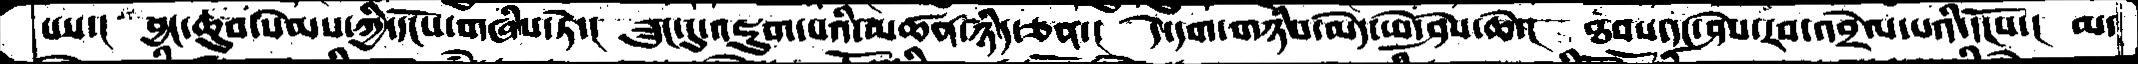པས་།  བྱང་ཆུབ་སེམས་ཀྱི་དངོས་གཞིས་ཏེ་།   ཟུང་དུ་འཇུག་པའི་མཚན་ཉིད་ཅན་།  དེ་དག་གཉིས་མེད་ཡེ་ཤེས་ཆེ་།  ཐབས་དང་ཤེས་རབ་འབྲེལ་པའི་དངོས་།  མ་
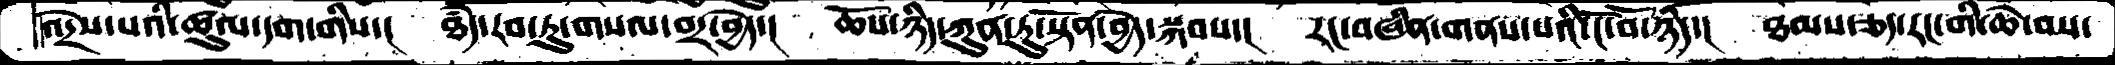འདྲེས་པའི་ཚུལ་དག་གིས་།   ཐཾད་རབ་ཏུ་གསལ་བར་བྱེད་།  ཆོས་ཉིད་ཀུན་ཏུ་སྟོན་བྱེད་སྐབས་།  རང་བཞིན་གནས་པའི་ངོ་བོ་ཉིད་།  ཐམས་ཅད་རང་གི་ཆེ་བས་
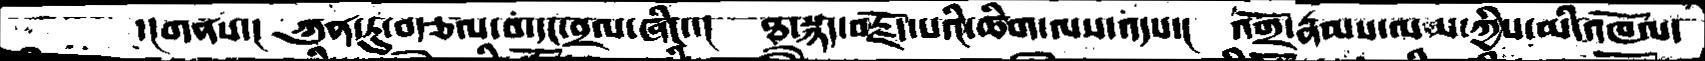་།གནས་།  ཀུན་ཏུ་བརྩལ་བ་དང་བྲལ་ཞིང་་།  ཐ་སྙད་བརྗོད་པའི་ཚིག་ལས་འདས་།  འགྲོ་རྣམས་ལས་ཀྱིས་མི་འཁོལ་
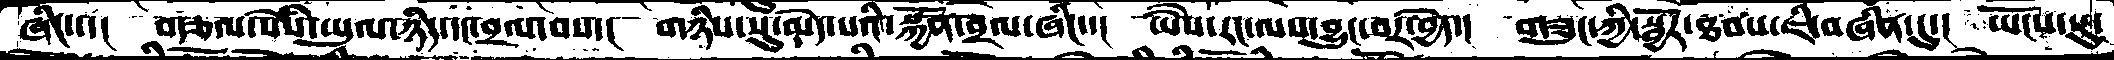ཞིང་་།  བརྩལ་སེཾས་ཡུལ་ཉིད་དང་བྲལ་བས་།  གཉིས་སུ་མེད་པའི་སྐྱོན་བྲལ་ཞིང་་།  ཡཻས་རང་ལས་བྱུང་བར་བྱེད་།  གཟུང་ཀྱི་སྦྱོར་ཐབས་ཇི་བཞིན་དུ་།  ཡོངས་སུ་
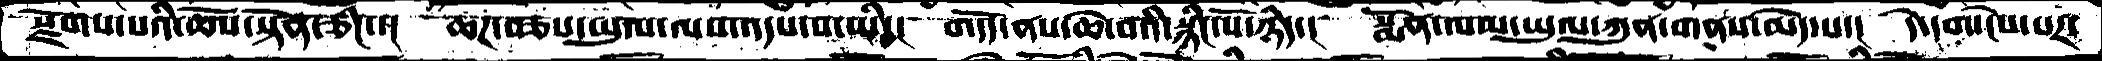སྫོགས་པའི་ཆོས་སྟོན་ཅིང་་།  ཆཌ་བཅས་ཡུལ་ལས་འདས་པ་ཡི་།  གདོད་ནས་ཆེ་བའི་སྙིང་པོ་ཉིད་།  སྨོན་ལམ་ཡུལ་ཀུན་གནས་མེད་པ་།  དེ་དག་ངེས་པར་
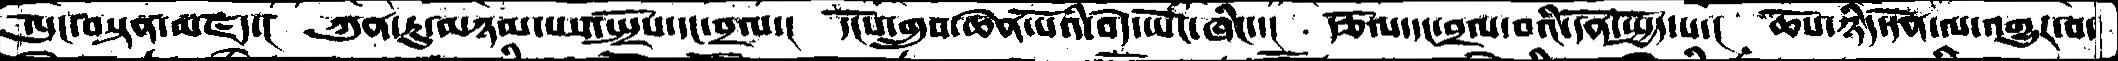ལུང་བསྟན་མཛད་།  ཀུན་ཏུ་མཉམ་པས་སྤྲོས་དང་བྲལ་།  དངོས་གྲུབ་ཆེན་པོའི་བདེ་ཡོང་ཞིང་་།  རྩོལ་དང་བྲལ་བའི་དོན་སྤྱོད་པ་།  ཆོས་ཉིད་དོན་ལ་འགྱུར་བ་
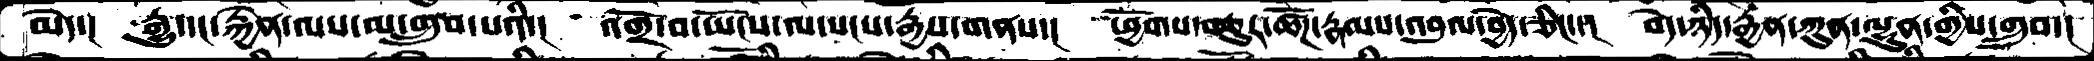མེད་།  རྒྱུ་དང་རྐྱེན་ལས་མ་གྲུབ་པའི་།  འགྲོ་བ་ཡོངས་ལ་སངས་རྒྱས་གནས་།  ཕྱོགས་བཅུར་ཚོཌ་རྣམས་འབུལ་བྱེད་ཅིང་་།  བདེ་ཉིད་རྒྱན་ཀུན་ལྷུན་གྱིས་གྲུབ་།
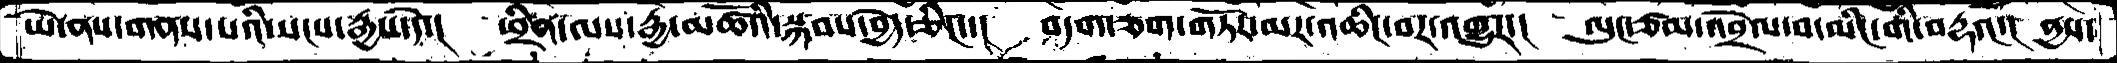ཡེ་ནས་གནས་པའི་སངས་རྒྱས་དེ་།  ཕྲིན་ལས་རྒྱ་མཚོའི་སྐབས་བྱེད་ཅིང་་།  བདག་ཅག་གཏོར་མར་འཆིང་བར་འགྱུར་།  ལུང་ཙམ་འབྲེལ་བ་མིང་གི་བརྡའ་།  ནྱས་
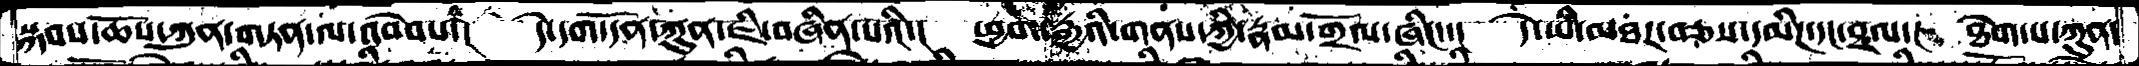སྐབས་ཆོས་ཀུན་གཏན་ལ་འབེབས་། དེ་དག་དོན་ཀུན་ཇི་བཞིན་པའི་། ཕྱག་རྒྱའི་གནས་ཀྱི་རྣམ་གྲོལ་ཞིང་་། དེ་ཡི་མཐར་བཅས་དམིཌ་དང་བྲལ་། ཐེག་པ་ཀུན་
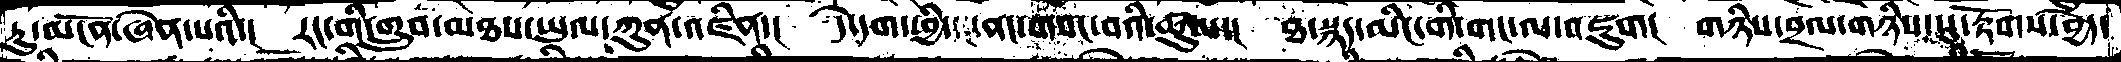ཏུ་མངོན་ཞེན་པའི་།  རང་གི་གྲུབ་མཐས་ཡུལ་ཀུན་འཛིན་།  དེ་དག་ཕྱི་ནང་གསང་བའི་ཚུལ་།  ཐ་སྙད་མིང་གི་གང་ལ་འཇུག།  གཉིས་བྲལ་གཉིས་སུ་རྟོགས་བྱེད་
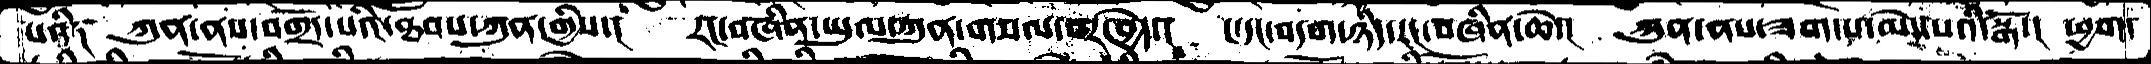པའི༑ ཀུན་ནས་བགྲོད་པའི་ཐབས་ཀུན་གྱིས་། རང་བཞིན་ཡུལ་ཀུན་གསལ་བར་བྱེད་། ང་དང་བདག་ཉིད་རང་བཞིན་ཆེ་། ཀུན་ནས་ཟག་པ་མེད་པའི་སྒོ་། ཕྱག་
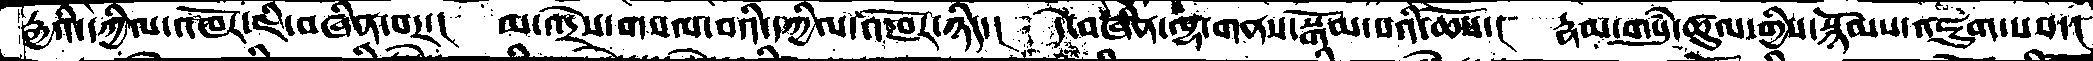རྒྱའི་དཀྱིལ་འཁོར་ཇི་བཞིན་པར་།  མ་འདྲེས་གསལ་བའི་དཀྱིལ་འཁོར་ཉིད་།  དེ་བཞིན་ལྷ་གནས་སྒོམ་པའི་ཆོས་།  རྣམ་གསུཾ་ཚུལ་གྱིས་སྙོམས་འཇུག་པས་།
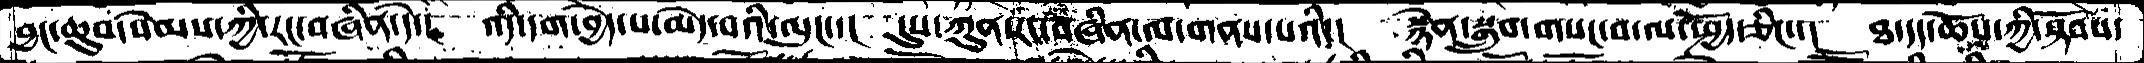བྱང་ཆུབ་སེམས་ཀྱི་རང་བཞིན་དེ་།  འདི་དག་བྱེད་པ་མེད་པའི་ལུང་་།  དུས་ཀུན་རང་བཞིན་ལ་གནས་པའི་།  སྙེན་སྒྲུབ་གསང་བ་ལ་སྤྱོད་ཅིང་་།  ཐ་དད་ཆོས་ཀྱི་སྟོབས་
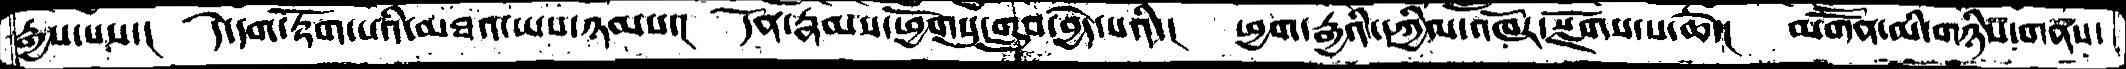རྒྱས་པས་།  དེ་དག་རྟོག་པའི་མཐའ་ཡས་ཉམས་།  དོན་རྣམས་ཕྱོགསུ་གྲུབ་བྱེད་པའི་།  ཕྱག་རྒྱའི་དཀྱིལ་འཁོར་སྫོགས་པ་ཆེ་།  མགཽན་མི་གཉིས་གནས་
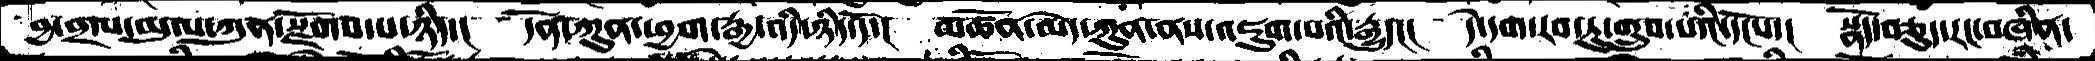བྱ་བྲལ་ཡུལ་ཀུན་སྫོགས་པ་ཉིད་།  དོན་ཀུན་ཕྱག་རྒྱ་འདི་ཉིད་དོ་།  མཚོན་མེད་ཀུན་ནས་འཇུག་པའི་རྒྱུད།།།  དེ་དག་རབ་ཏུ་གྲུབ་པའི་དངོས་།  སྣོད་བཅུད་རང་བཞིན་
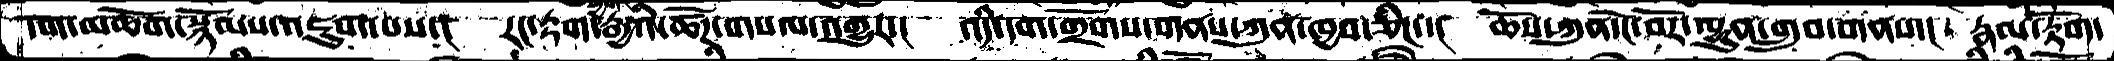དོག་མཆོག་སྙོམས་འཇུག་པས་། རང་རྟག་རྒྱའི་ཚོཌ་གསལ་འགྱུར་། འདི་དག་གྲོགས་གནས་ཀུན་ཁྱབ་ཅིང་་། ཆོས་ཀུན་ངོ་བོར་ལྷུན་གྲུབ་གནས་། རྣམ་རྟོག་
